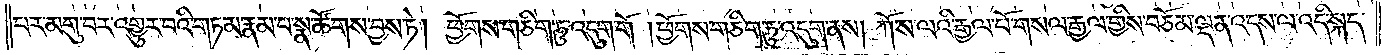པར་མགུ་བར་འགྱུར་བའི་གཏམ་རྣམ་པ་སྣ་ཚོགས་བྱས་ཏེ། ཕྱོགས་གཅིག་ཏུ་འདུག་གོ །ཕྱོགས་གཅིག་ཏུ་འདུག་ནས། ཀོ་ས་ལའི་རྒྱལ་པོ་གསལ་རྒྱལ་གྱིས་བཅོམ་ལྡན་འདས་ལ་འདི་སྐད་
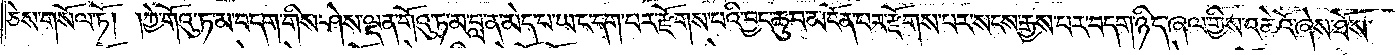ཅེས་གསོལ་ཏོ། །ཀྱེ་གོའུ་ཏ་མ་བདག་གིས་ཤེས་ལྡན་གོའུ་ཏ་མ་བླ་ན་མེད་པ་ཡང་དག་པར་རྫོགས་པའི་བྱང་ཆུབ་མངོན་པར་རྫོགས་པར་སངས་རྒྱས་པར་བདག་ཉིད་ཞལ་གྱིས་འཆེའོ་ཞེས་ཐོས་
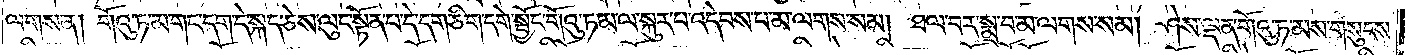ལགས་ན། གོའུ་ཏ་མ་གང་དག་དེ་སྐད་ཅེས་ལུང་སྟོན་པ་དེ་དག་ཅིག་དགེ་སྦྱོང་གོའུ་ཏ་མ་ལ་སྐུར་པ་འདེབས་པ་མ་ལགས་སམ། ཐལ་བར་སྨྲ་བ་མ་ལགས་སམ། ཤེས་ལྡན་གོའུ་ཏ་མས་གསུངས་
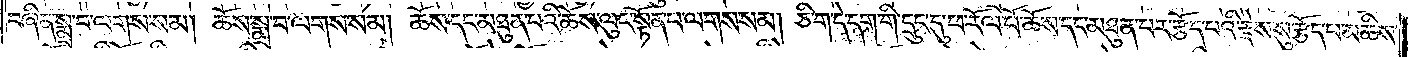བཞིན་སྨྲ་བ་ལགས་སམ། ཆོས་སྨྲ་བ་ལགས་སམ། ཆོས་དང་མཐུན་པའི་ཆོས་ལུང་སྟོན་པ་ལགས་སམ། ཅི་ག་དེ་དག་གི་དྲུང་དུ་ཕ་རོལ་པོ་ཆོས་དང་མཐུན་པར་རྩོད་པའི་རྗེས་སུ་རྩོད་པ་མཆིས་
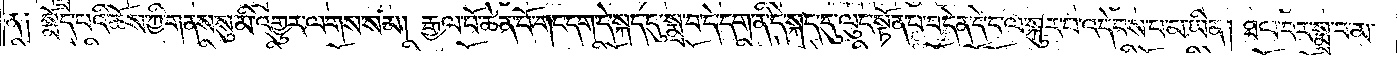ན༑ སྨོད་པའི་ཆོས་ཀྱི་གནས་སུ་མི་འགྱུར་ལགས་སམ། རྒྱལ་པོ་ཆེན་པོ་གང་དག་དེ་སྐད་དུ་སྨྲ་བ་དེ་དག་ནི་དེ་སྐད་དུ་ལུང་སྟོན་པ་བདེན་དེ་ང་ལ་སྐུར་པ་འདེབས་པ་མ་ཡིན། ཐལ་བར་སྨྲ་བ་མ་
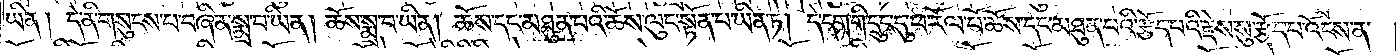ཡིན། དེ་ནི་གསུངས་པ་བཞིན་སྨྲ་བ་ཡིན། ཆོས་སྨྲ་བ་ཡིན། ཆོས་དང་མཐུན་པའི་ཆོས་ལུང་སྟོན་པ་ཡིན་ཏེ། དེ་དག་གི་དྲུང་དུ་ཕ་རོལ་པོ་ཆོས་དང་མཐུན་པའི་རྩོད་པའི་རྗེས་སུ་རྩོད་པ་འོངས་ན་
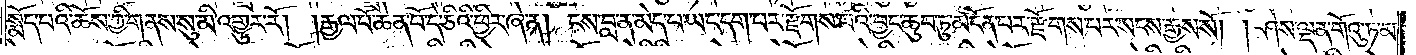སྨོད་པའི་ཆོས་ཀྱི་གནས་སུ་མི་འགྱུར་རོ། །རྒྱལ་པོ་ཆེན་པོ་དེ་ཅིའི་ཕྱིར་ཞེ་ན། ངས་བླ་ན་མེད་པ་ཡང་དག་པར་རྫོགས་པའི་བྱང་ཆུབ་ཏུ་མངོན་པར་རྫོགས་པར་སངས་རྒྱས་སོ། །ཤེས་ལྡན་གོའུ་ཏ་མ་
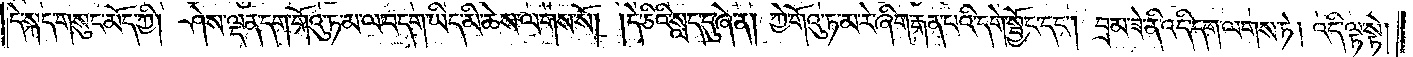དེ་སྐད་གསུང་མོད་ཀྱི། ཤེས་ལྡན་དག་གོའུ་ཏ་མ་ལ་བདག་ཡིད་མི་ཆེས་ལགས་སོ། །དེ་ཅིའི་སླད་དུ་ཞེ་ན། ཀྱེ་གོའུ་ཏ་མ་རེ་ཞིག་རྒན་པའི་དགེ་སྦྱོང་དང༌། བྲམ་ཟེ་ནི་འདི་དག་ལགས་ཏེ། འདི་ལྟ་སྟེ།
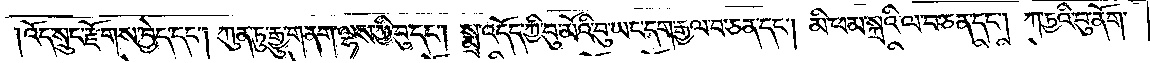།འོད་སྲུང་རྫོགས་བྱེད་དང༌། ཀུན་ཏུ་རྒྱུ་གནག་ལྷས་ཀྱི་བུ་དང༌། སྨྲ་འདོད་ཀྱི་བུ་མོའི་བུ་ཡང་དག་རྒྱལ་བ་ཅན་དང༌། མི་ཕམ་སྐྲའི་ལ་བ་ཅན་དང༌། ཀ་ཏྱའི་བུ་ནོག་
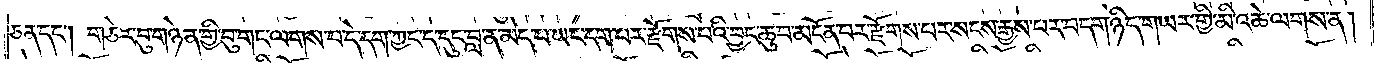ཅན་དང༌། གཅེར་བུ་གཉེན་གྱི་བུ་གང་ལགས་པ་དེ་དག་ཀྱང་ད་དུང་བླ་ན་མེད་པ་ཡང་དག་པར་རྫོགས་པའི་བྱང་ཆུབ་མངོན་པར་རྫོགས་པར་སངས་རྒྱས་པར་བདག་ཉིད་གཡར་གྱི་མི་འཆེ་ལགས་ན།
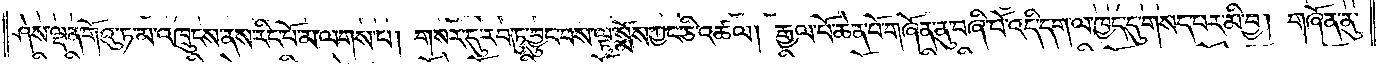ཤེས་ལྡན་གོའུ་ཏ་མ་འཁྲུངས་ནས་རིང་པོ་མ་ལགས་པ། གསར་དུ་རབ་ཏུ་བྱུང་བས་ལྟ་སྨོས་ཀྱང་ཅི་འཚལ། རྒྱལ་པོ་ཆེན་པོ་གཞོན་ནུ་བཞི་པོ་འདི་དག་ལ་ཁྱད་དུ་གསད་པར་མི་བྱ། གཞོན་ནུ་
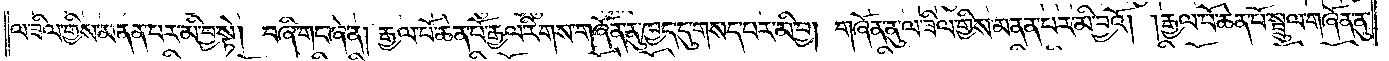ལ་ཟིལ་གྱིས་མནན་པར་མི་བྱ་སྟེ། བཞི་གང་ཞེ་ན། རྒྱལ་པོ་ཆེན་པོ་རྒྱལ་རིགས་གཞོན་ནུ་ཁྱད་དུ་གསད་པར་མི་བྱ། གཞོན་ནུ་ལ་ཟིལ་གྱིས་མནན་པར་མི་བྱའོ། །རྒྱལ་པོ་ཆེན་པོ་སྦྲུལ་གཞོན་ནུ་
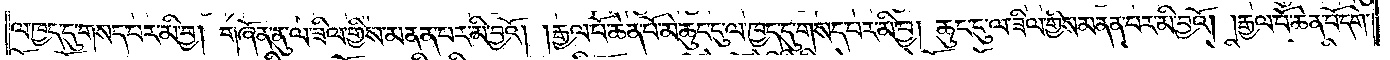ལ་ཁྱད་དུ་གསད་པར་མི་བྱ། གཞོན་ནུ་ལ་ཟིལ་གྱིས་མནན་པར་མི་བྱའོ། །རྒྱལ་པོ་ཆེན་པོ་མེ་ཆུང་ངུ་ལ་ཁྱད་དུ་གསད་པར་མི་བྱ། ཆུང་ངུ་ལ་ཟིལ་གྱིས་མནན་པར་མི་བྱའོ། །རྒྱལ་པོ་ཆེན་པོ་དགེ་
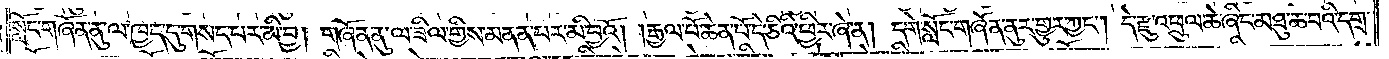སློང་གཞོན་ནུ་ལ་ཁྱད་དུ་གསད་པར་མི་བྱ། གཞོན་ནུ་ལ་ཟིལ་གྱིས་མནན་པར་མི་བྱའོ། །རྒྱལ་པོ་ཆེན་པོ་དེ་ཅིའི་ཕྱིར་ཞེ་ན། དགེ་སློང་གཞོན་ནུར་གྱུར་ཀྱང༌། དེ་རྫུ་འཕྲུལ་ཆེ་ཞིང་མཐུ་ཆེ་བའི་དགྲ་
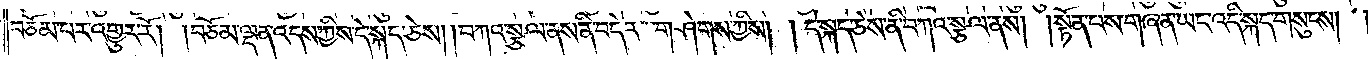བཅོམ་པར་འགྱུར་རོ། །བཅོམ་ལྡན་འདས་ཀྱིས་དེ་སྐད་ཅེས། །བཀའ་སྩལ་ནས་ནི་བདེར་གཤེགས་ཀྱིས། །དེ་སྐད་ཅེས་ནི་བཀའ་སྩལ་ནས། །སྟོན་པས་གཞན་ཡང་འདི་སྐད་གསུངས། །
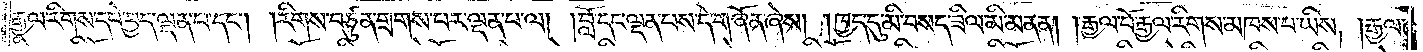རྒྱལ་རིགས་དཔེ་བྱད་ལྡན་པ་དང༌། །རིགས་བཙུན་གྲགས་པར་ལྡན་པ་ལ། །བློ་དང་ལྡན་པས་དེ་གཞོན་ཞེས། །ཁྱད་དུ་མི་བསད་ཟིལ་མི་མནན། །རྒྱལ་པོ་རྒྱལ་རིགས་མཁས་པ་ཡིས། །རྒྱལ་
